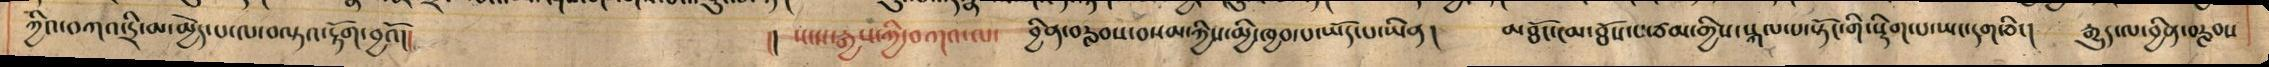ཀྱིའ་བཀའ་དྲི་མ་མྱེད་པ་ལ་བལྟའ་རྟོག་བྱའོ།། །། སངས་རྒྱས་ཀྱི་བཀའ་ལ་ བྱིན་བརླབས་བསམ་ཀྱིས་མྱི་ཁྱབ་པ་ཡོད་པ་ཡིན། མཐོང་ངམ་ཐོས་པ་ཙམ་གྱིས་སྐལ་པ་སྟོང་གི་སྡིག་པ་ཡང་དག་ཅིང། རྒྱུད་ལ་བྱིན་བརླབས
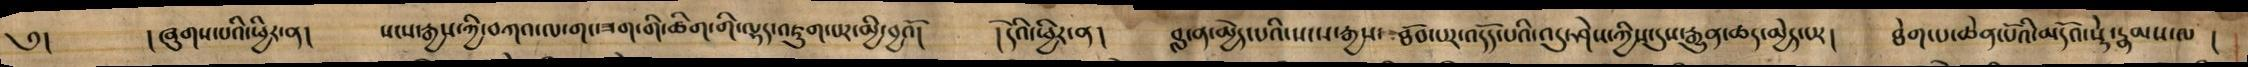༅། །ཞུགས་པའི་ཕྱིར་ན། སངས་རྒྱས་ཀྱི་བཀའ་ལ་གང་ཟག་གི་ཚིག་གི་ལྷད་འཇུག་པར་མྱི་བྱའོ། །དེའི་ཕྱིར་ན། བླ་ན་མྱེད་པའི་སངས་རྒྱས་ ཐོབ་པར་འདོད་པའི་འདུ་ཤེས་ཀྱིས་དུས་རྒྱུན་ཆད་མྱེད་པར། ཐེག་པ་ཆེན་པོའི་མདོའ་སྡེ་རྣམས་ལ །
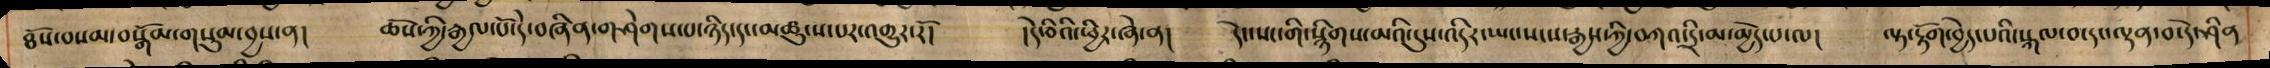ཐོས་བསམ་བསྒོམ་གསུམ་བྱས་ན། ཆོས་ཀྱི་རྒྱལ་པོ་དེ་བཞིན་གཤེགས་པ་ཉིད་དང་མཚུངས་པར་འགྱུར་རོ། །དེ་ཅིའི་ཕྱིར་ཞེ་ན། དེང་སང་གི་སྙིགས་མའི་དུས་འདིར་ཡང་སངས་རྒྱས་ཀྱི་བཀའ་དྲི་མ་མྱེད་པ་ལ། ལྟ་རྟོག་བྱེད་པའི་སྐལ་བ་དང་ལྡན་བ་དེ་ཤིན
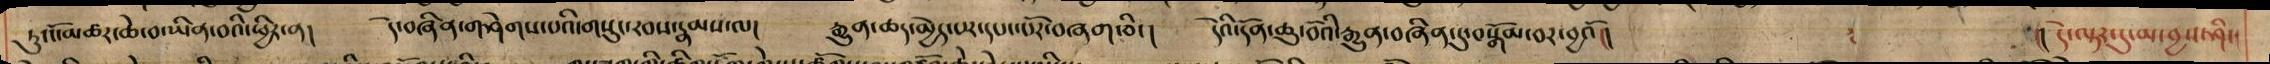ཏུ་ངོ་མཚར་ཆེ་བ་ཡིན་བའི་ཕྱིར་ན། དེ་བཞིན་གཤེགས་པའི་གསུང་རབས་རྣམས་ལ། རྒྱུན་ཆད་མྱེད་པར་དཔང་པོར་བཞག་ཅིང། དེའི་དོན་ཆུ་བོའི་རྒྱུན་བཞིན་དུ་བསྒོམ་བར་བྱའོ།། །། དེ་ལྟར་དུ་མ་བྱས་ཤིང་
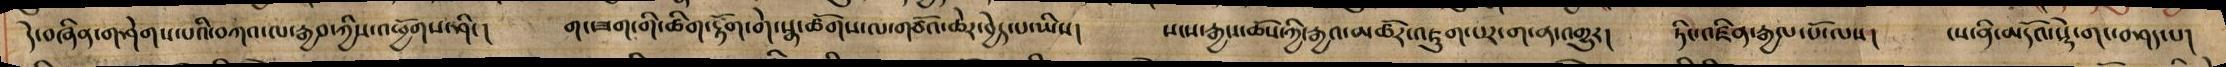དེ་བཞིན་གཤེགས་པའི་བཀའ་ལ་རྒྱབ་ཀྱིས་འཕྱོགས་ཤིང། གང་ཟག་གི་ཚིག་རྟོག་གེ་སྣ་ཚོགས་ལ་གཙོའ་ཆེར་བྱེད་པ་ཡིས། སངས་རྒྱས་ཆོས་ཀྱི་རྒྱའ་མཚོར་འཇུག་པར་ག་ན་འགྱུར། ཏིང་འཛིན་རྒྱལ་པོ་ལས། ངས་ནི་མདོའ་སྡེ་གང་བཤད་པ།
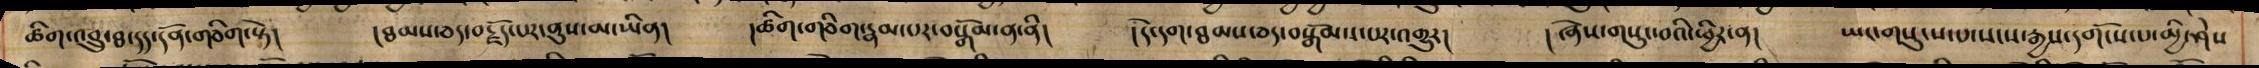ཚིག་འབྲུ་ཐ་དད་དོན་གཅིག་སྟེ། །ཐམས་ཅད་བརྗོད་པར་ནུས་མ་ཡིན། །ཚིག་གཅིག་རྣམ་པར་བསྒོམ་ན་ནི། །དེ་དག་ཐམས་ཅད་བསྒོམས་པར་འགྱུར། །ཞེས་གསུང་བའི་ཕྱིར་ན། ཡང་གསུངས་པ་སངས་རྒྱས་དགོངས་པ་མྱི་ཤེས
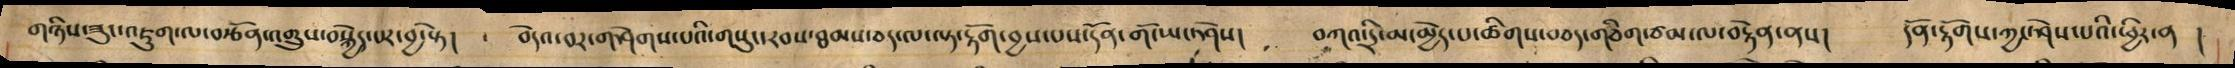གཉིས་ཟུང་འཇུག་ལ་བརྩོན་འགྲུས་བསྐྱེད་པར་བྱ་སྟེ། བདེའ་བར་གཤེགས་པའི་གསུང་རབས་ཐམས་ཅད་ལ་ལྟ་རྟོག་བྱས་པས་དོན་གོ་ཡང་ཤེས། བཀའ་དྲི་མ་མྱེད་པ་ཚིགས་བཅད་གཅིག་ཙམ་ལ་བརྟེན་ནས། དོན་རྟོགས་ཀྱང་ཤེས་པའི་ཕྱིར་ན །
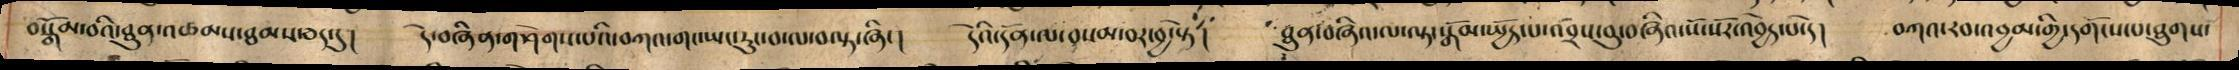བསྒོམ་བའི་ཐུན་འཚམས་ཐམས་ཅད་དུ། དེ་བཞིན་གཤེགས་པའི་བཀའ་གང་ཡང་རུང་བ་ལ་བལྟ་ཞིང། དེའི་དོན་ལ་བསམ་བར་བྱ་སྟེ། ཐུན་བཞིའ་ལ་ལྟ་སྒོམ་སྤྱོད་པ་འབྲས་བུ་བཞཱིའ་སོ་སོར་འབྱེད་པ་དེ། བཀའ་རབ་འབྱམ་གྱི་དགོངས་པ་ཐུགས་
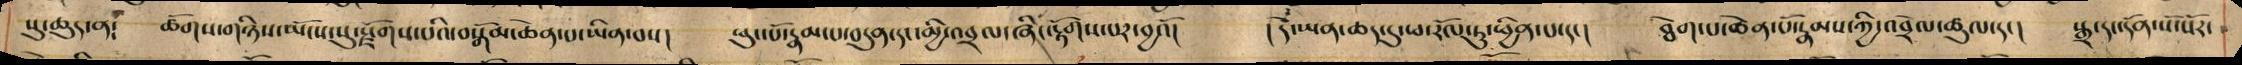སུ་ཆུད་ན: ཚོགས་གཉིས་ཡོངས་སུ་སྫོགས་པའི་བསྒོམ་ཆེན་པ་ཡིན་བས། ཕུང་པོ་རྣམ་པ་བདུན་དང་མྱི་འབྲལ་ཞིང་རྟོགས་པར་བྱའོ། ། དེ་ཡན་ཆད་དུ་ཕ་རོལ་ཏུ་ཕྱིན་པ་དང། ཐེག་པ་ཆེན་པོ་རྣམས་ཀྱི་འབྲེལ་ཚུལ་དང། སྒྲ་དང་དོན་སོ་སོར་
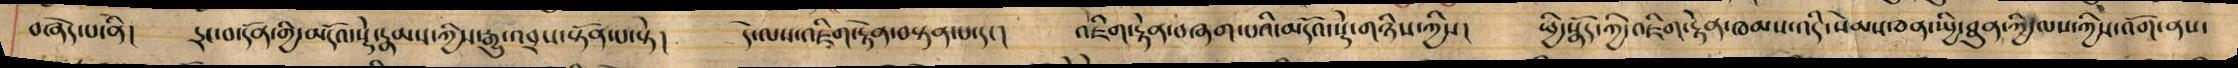བཞེད་པ་ནི། དྲང་བ་དོན་གྱི་མདོའ་སྡེ་རྣམས་ཀྱིས་རྒྱུ་འབྲས་སྟོན་པ་སྟེ། དེ་ལས་འཇིག་རྟེན་བསྟན་པ་དང། འཇིག་རྟེན་བཞག་པའི་མདཔའ་སྡེ་གཉིས་ཀྱིས། ཕྱི་སྣོད་ཀྱི་འཇིག་རྟེན་ཁམས་འདི་སེམས་ཅན་སྤྱི་ཐུན་ཀྱི་ལས་ཀྱིས་འོག་ནས་
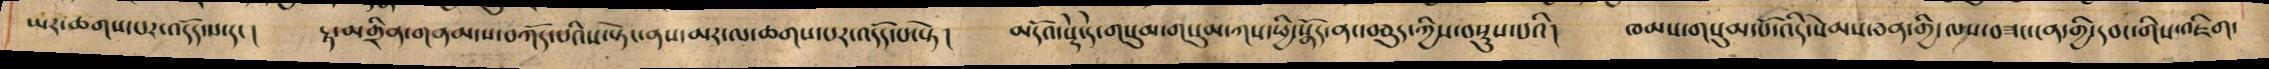ཡར་ཆགས་པར་འདོད་པ་དང། རྟ་མགྲིན་གནམ་ས་བཀོད་པའི་ས་སྟེང་ནས་དམར་ལ་ཆགས་པར་འདོད་པ་སྟེ། མདོའ་སྡེ་དེ་གསུམ་གསུམ་ཀས་ཕྱི་སྣོད་ནང་བཅུད་ཀྱིས་བསྡུས་པའི། ཁམས་གསུམ་པོ་འདི་སེམས་ཅན་གྱི་ལས་བཟང་ངན་གྱི་དབང་གིས་འཇིག་
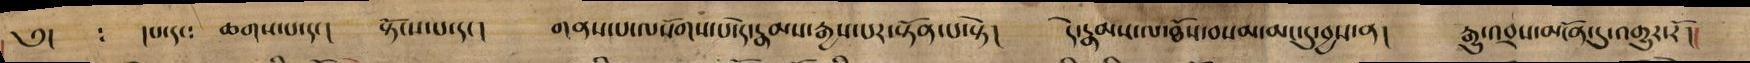༅། : །པ་དང: ཆགས་པ་དང། སྟོངས་པ་དང། གནས་པ་ལསོགས་པ་དེ་རྣམས་རྒྱས་པར་སྟོན་པ་སྟེ། དེ་རྣམས་ལ་ཐོས་བསམ་མང་དུ་བྱས་ན། རྒྱུ་འབྲས་མངོན་དུ་འགྱུར་རོ།།
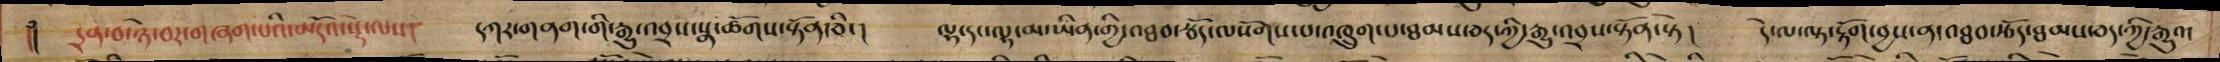།། དྲན་བ་ཉེ་བར་གཞག་པའི་མདོའ་སྡེ་ལས། དཀར་ནག་གི་རྒྱུ་འབྲས་སྣ་ཚོགས་སྟོན་ཅིང། ལྷ་དང་ལྷ་མ་ཡིན་གྱི་འཐབ་རྩོད་ལསོགས་པ་འཁྲུག་པ་ཐམས་ཅད་ཀྱི་རྒྱུ་འབྲས་སྟོན་སྟེ། དེ་ལ་ལྟ་རྟོག་བྱས་ན་འཐབ་རྩོད་ཐམས་ཅད་ཀྱི་རྒྱུའ་
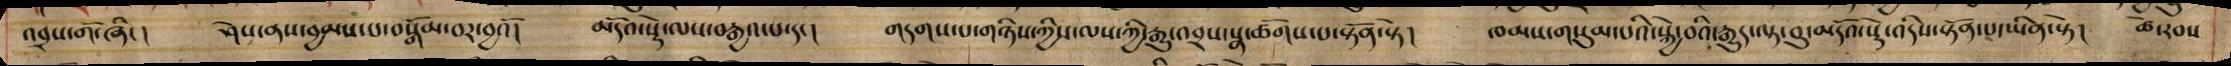འབྲས་གོ་ཞིང། ཤེས་ནས་བྱམས་པ་བསྒོམ་བར་བྱའོ། མདོའ་སྡེ་ལས་བརྒྱའ་པ་དང། གདགས་པ་གཉིས་ཀྱིས་ལས་ཀྱི་རྒྱུ་འབྲས་སྣ་ཚོགས་པ་སྟོན་སྟེ། ཁམས་གསུམ་པའི་སྐྱེ་བའི་རྒྱུད་ལྟ་བུ་མདོའ་སྡེ་འདིས་སྟོན་པ་ཡིན་སྟེ། ཚེ་རབས
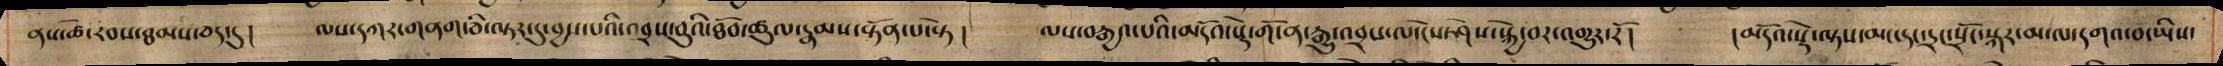ནས་ཚེ་རབས་ཐམས་ཅད་དུ། ལས་དཀར་གནག་ཅི་ལྟར་དུ་བྱས་པའི་འབྲས་བུའི་ཐོབ་ཚུལ་རྣམས་སྟོན་པ་སྟེ། ལས་བརྒྱའ་པའི་མདོའ་སྡེ་གོ་ན་རྒྱུ་འབྲས་ལ་ངེས་ཤེས་སྐྱེ་བར་འགྱུར་རོ། །མདོའ་སྡེ་ལྟས་མང་དང་དྲང་སྲོང་སྐར་མ་ལ་དགའ་བ་ཡིས་
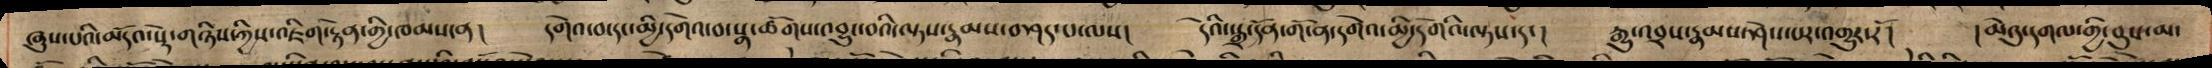ཞུས་པའི་མདོའ་སྡེ་གཉིས་ཀྱིས་འཇིག་རྟེན་གྱི་ཁམས་ན། དགེའ་བ་དང་མྱི་དགེའ་བ་སྣ་ཚོགས་འབྱུང་བའི་ལྟས་རྣམས་བཤད་པ་ལས། དེའི་སྒྲ་དོན་གོ་ན་དགེའ་མྱི་དགེའི་ལྟས་དང། རྒྱུ་འབྲས་རྣམས་ཤེས་པར་འགྱུར་རོ། །མེའུ་དགལ་གྱི་བུས་མ་
